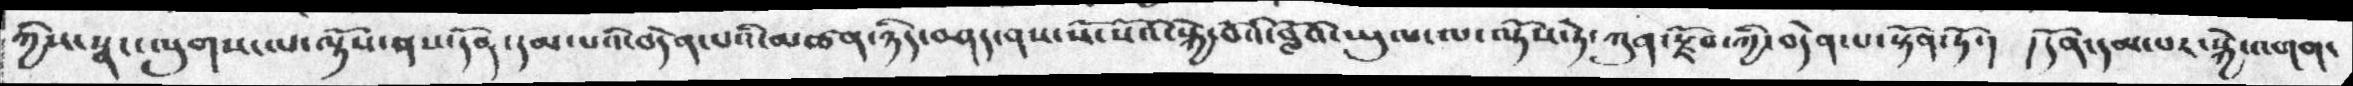ཀྱིས་སྣང་ལུགས་ལ་ལྟོས་ནས་དོན་དམ་པའི་བདེན་པའི་མཚན་ཉིད་བཤད་ནས་སོ་སོའི་སྐྱེ་བོའི་བློའི་ཡུལ་ལ་ལྟོས་ཏེ་ཀུན་སྫོབ་ཀྱི་བདེན་པ་སྟོན་ཏོ་།   ། དོན་དམ་པར་སྐྱེ་འགག་
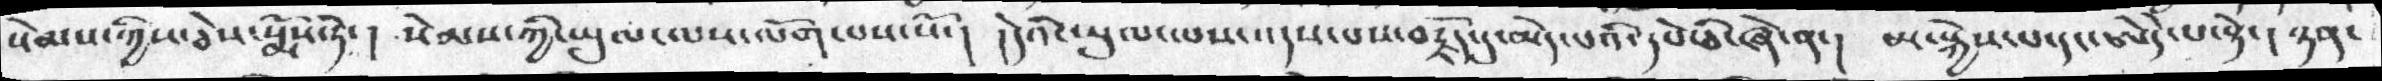སེམས་ཀྱིས་ཅེས་སྨོས་ཏེ་ །  སེམས་ཀྱི་ཡུལ་ལས་ལོག་པས་སོ་།  །དེའི་སུལ་པས་འདས་པས་བརྗོད་དུ་མེད་པའི་དཔེ་ཅི་ཞེ་ན་།  མ་སྐྱེས་པ་དང་ཨེདེ་པ་སྟེ་།  ཉན་
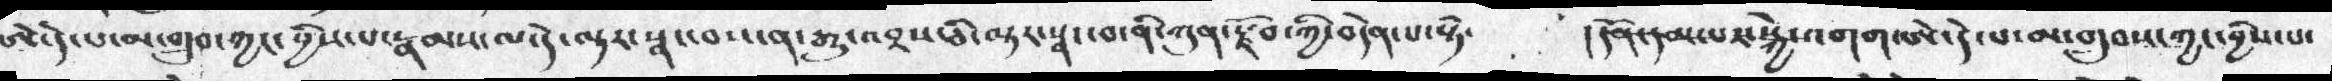ཨེ་དེ་པ་མ་གྲུབ་ཀྱང་བྱིས་པ་རྣམས་ལ་དེ་ལྟར་སྣང་བས་ན་རྒྱུ་འབྲས་ཅི་ལྟར་སྣང་བ་ནི་ཀུན་རྫོབ་ཀྱི་བདེན་པ་སྟེ་      །དོན་དམ་པར་སྐྱེ་འགག་ཨེ་དེ་པ་མ་གྲུབས་ཀྱང་བྱིས་པ་
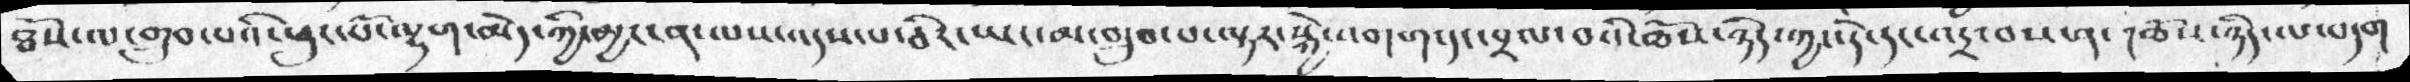ཐོས་ལ་གྲུབ་པའི་ཕུང་པོ་ལྷག་མེད་ཀྱི་མྱ་ངན་ལས་འདས་པ་ཅིར་ཡང་མ་གྲུབ་པ་ལྟར་སྐྱེ་འགག་དང་བྲལ་བའི་ཆོས་ཉིད་ཀྱང་དེ་དང་འདྲ་བས་ན་། ཆོས་ཉིད་ལ་བདག
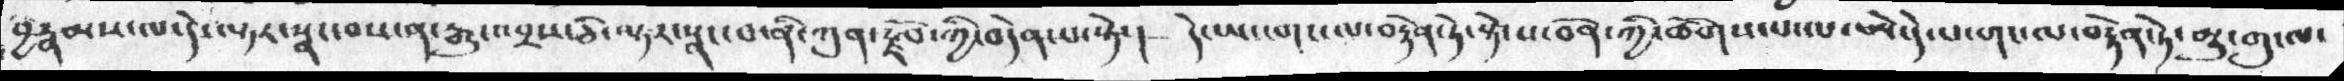བྱརྣམས་ལ་དེ་ལྟར་སྣང་བས་ན་རྒྱུ་འབྲས་ཅི་ལྟར་སྣང་བ་ནི་ཀུན་རྫོབ་ཀྱི་བདེན་པ་སྟེ་།  དེ་ཡང་གང་ལ་བརྟེན་ཏེ་སྟེ་ས་བོན་ཀྱི་ཚོགས་པ་ལ་ཨེ་དེ་པ་གང་ལ་བརྟེན་ཏེ་མྱུ་གུ་ལ་
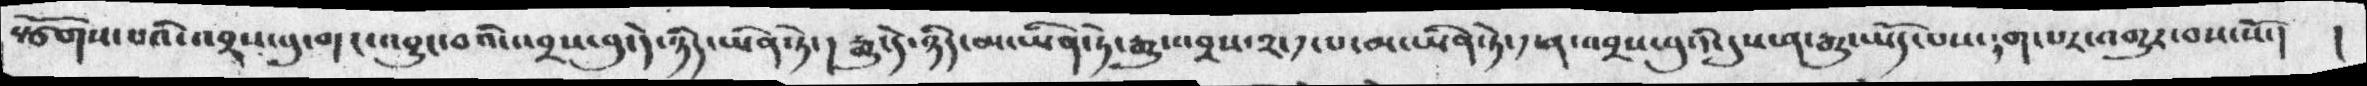སྩོགས་པའི་འབྲས་བུ་གང་འབྱུང་བའི་འབྲས་བུ་དེ་ཉིད་ཡིན་ཏེ་།  རྒྱུ་དེ་ཉིད་མ་ཡིན་ཏེ་རྒྱུ་འབྲས་༢་༡་པ་མ་ཡིན་ཏེ་༡་ན་འབྲས་བུའི་དུས་ན་རྒྱུ་ཡོད་པས་༴ག་པར་འགྱུར་བས་སོ་། །
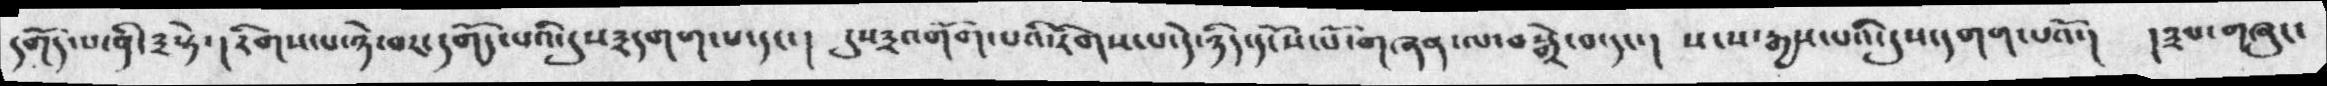དགོད་པ་ནི་༣སྟེ་། རིགས་པ་ཉེ་ཁང་དགོད་པའི་དུས༣དགག་པ་དང་། དུས༣འགོག་པའི་རིགས་པ་དེ་ཉིད་དངོས་པོ་གཞན་ལ་བསྒྲེ་བ་དང་།  སངས་རྒྱས་པའི་དུས་དགག་པའོ་།  །༣པ་གཞུང་
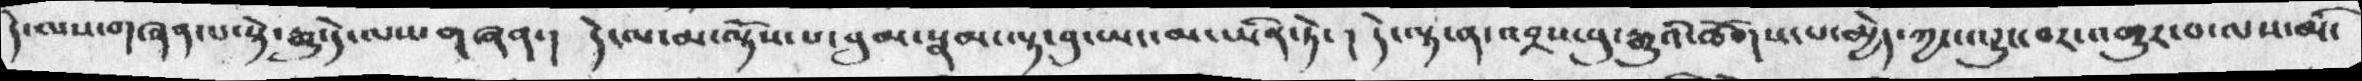དེ་ལས་གཞན་པ་སྟེ་རྒྱུ་དེ་ལས་གཞན་། དེ་ལ་མ་ལྟོས་པ་བུམ་སྣམ་ལྟ་བུ་ཡང་མ་ཡིན་ཏེ་། དེ་ལྟ་ན་འབྲས་བུ་རྒྱུའི་ཚོགས་པ་མྱེད་ཀྱང་འབྱུང་བར་འགྱུར་བ་ལས་མ་
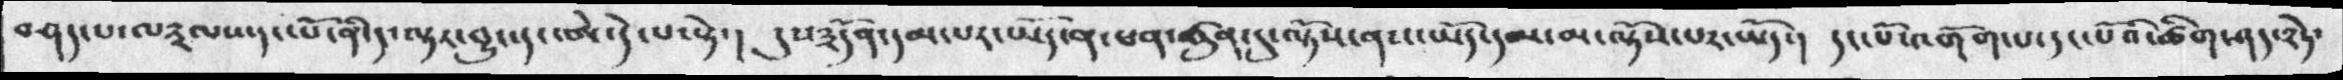བཤད་པ་ལ༣ལས་དང་པོ་ནི་ད་ལྟར་བྱུང་དང་ཨེ་དེ་པ་སྟེ་། དུས༣དོན་དམ་པར་ཡོད་ན་ཕན་ཚུན་དུ་ལྟོས་ནས་ཡོད་དམ་མ་ལྟོས་པར་ཡོད་། དང་པོ་འགོག་པ་དང་པོའི་ཚིག་ཤད་༢ཏེ་
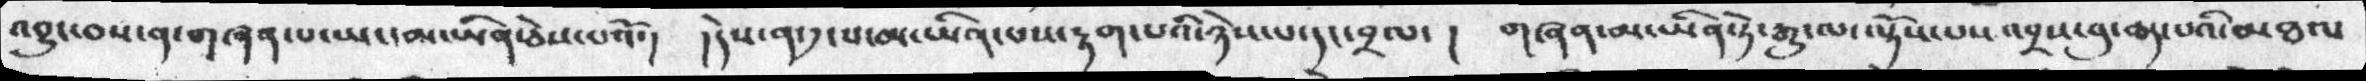འབྱུང་བས་ན་གཞན་པ་ཡང་མ་ཡིན་ཅེས་པའོ་།  །དེས་ན་༡་པ་མ་ཡིན་པས་རྟག་པའི་ཉེས་པ་དང་བྲལ་། གཞན་མ་ཡིན་ཏེ་རྒྱུ་ལ་ལྟོས་པས་འབྲས་བུ་ཆད་པའི་མཐལ་
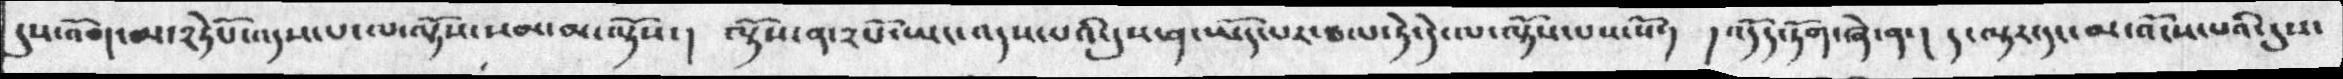དུས་འོག་མ་༢ཏེཔོ་འདས་པ་ལ་ལྟོས་སམ་མ་ལྟོས་། ལྟོས་ན་༢པོ་ཡང་འདས་པའི་དུས་ན་ཡོད་པར་ཐལ་ཏེ་དེ་ལ་ལྟོས་པས་སོ་། །འདོད་ཏོག་ཞེ་ན་། ད་ལྟར་དང་མ་འོངས་པའི་དུས་
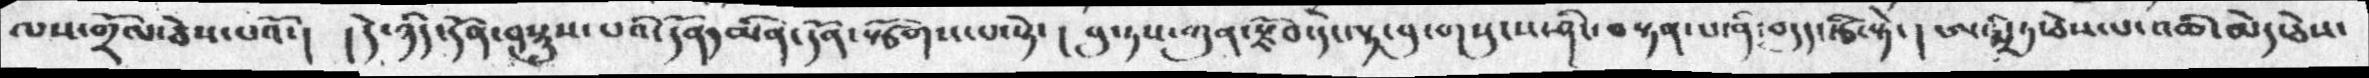ལས་གྲོལ་ཅེས་པའོ་། །དེ་ཉིད་དོན་བསྡུས་པའི་དོན་མིན་དོན་སྩོགས་པ་སྟེ་། བུ་ཏས་ཀུན་རྫོབ་དེ་ལྟ་བུ་གསུངས་ཤིང་བསྟན་པ་ནི་བདུད་རྩི་སྟེ་། ཨ་མྲི་ཏ་ཅེས་པ་འཆི་མེད་ཅེས་
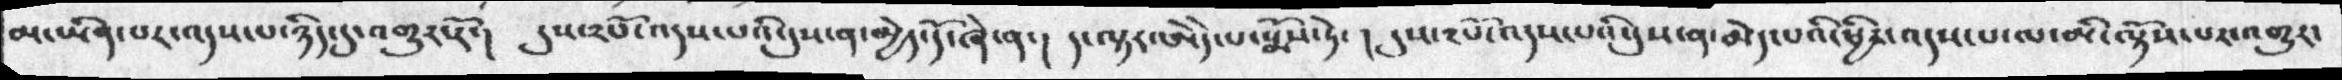མ་ཡིན་པར་འདས་པ་ཉིད་དུ་འགྱུར་རོ་།  དུས་༢པོ་འདས་པའི་དུས་ན་མྱེད་དོ་ཞེ་ན་། ད་ལྟར་ཨེདེ་པ་སྨོས་ཏེ་། དུས་༢པོ་འདས་པའི་དུས་ན་མེད་པའི་ཕྱིར་འདས་པ་ལ་མི་ལྟོས་པར་འགྱུར་
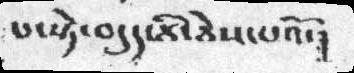པ་སྟེ་བདུད་རྩི་ཅེས་པའོ་།
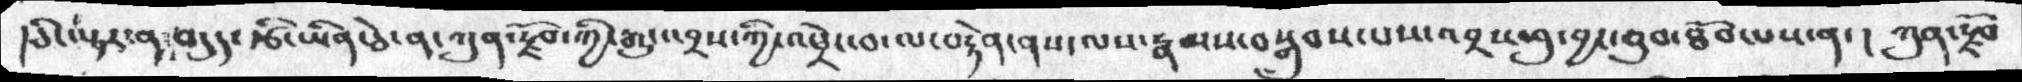།ཅི་ལྟར་ན་བདུད་རྩི་ཡིན་ཅེ་ན་ཀུན་རྫོབ་ཀྱི་རྒྱུ་འབྲས་ཀྱི་འཕྲེང་བ་ལ་བརྟེན་ནས་ལས་རྣམས་བསྒྲུབས་པས་འབྲས་བུ་བྱང་ཆུབ་ཐོབ་པས་ན་། ཀུན་རྫོབ་
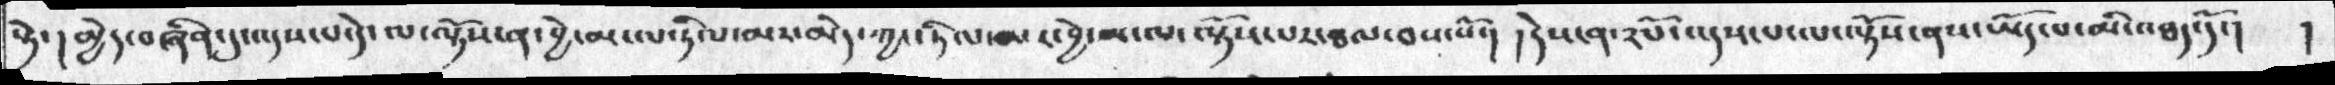སྟེ་།  མྱེད་བཞིན་དུ་འདས་པ་དེ་ལ་ལྟོས་ན་བྱེ་མ་ལ་ཏིལ་མར་མེད་ཀྱང་ཏིལ་མར་བྱེ་མ་ལ་ལྟོས་པར་ཐལ་བས་སོ་།  །དེས་ན་༢པོ་འདས་པ་ལ་ལྟོས་ནས་ཡོད་པ་མི་འཐད་དོ་།  །
